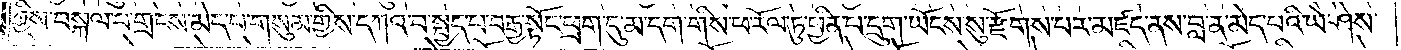ཀྱིས་བསྐལ་པ་གྲངས་མེད་པ་གསུམ་གྱིས་དཀའ་བ་སྤྱད་པ་བརྒྱ་སྟོང་ཕྲག་དུ་མ་དག་གིས་ཕ་རོལ་ཏུ་ཕྱིན་པ་དྲུག་ཡོངས་སུ་རྫོགས་པར་མཛད་ནས་བླ་ན་མེད་པའི་ཡེ་ཤེས་
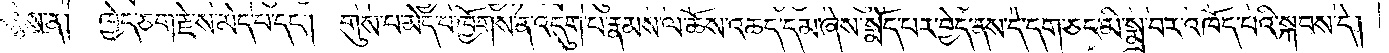བརྙེས་ན། ཁྱེད་ཅག་རྗེ་ས་མེད་པ་དང༌། གུས་པ་མེད་པ་ཁྱོགས་ན་འདུག་པ་རྣམས་ལ་ཆོས་འཆད་དམ་ཞེས་སྨོད་པར་བྱེད་ནས་དེ་དག་ཅང་མི་སྨྲ་བར་འཁོད་པའི་སྐབས་དེ།
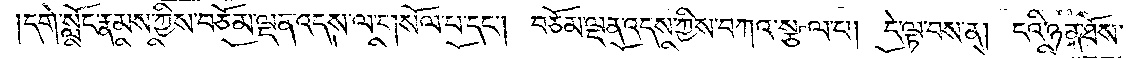དགེ་སློང་རྣམས་ཀྱིས་བཅོམ་ལྡན་འདས་ལ་གསོལ་པ་དང༌། བཅོམ་ལྡན་འདས་ཀྱིས་བཀའ་སྩལ་པ། དེ་ལྟ་བས་ན། ངའི་ཉན་ཐོས་
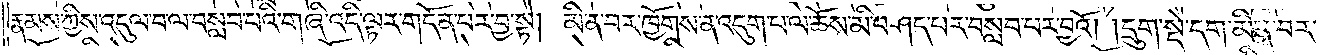རྣམས་ཀྱིས་འདུལ་བ་ལ་བསླབ་པའི་གཞི་འདི་ལྟར་གདོན་པར་བྱ་སྟེ། མི་ན་བར་ཁྱོགས་ན་འདུག་པ་ལ་ཆོས་མི་བཤད་པར་བསླབ་པར་བྱའོ། །དྲུག་སྡེ་དག་མི་ན་བར་
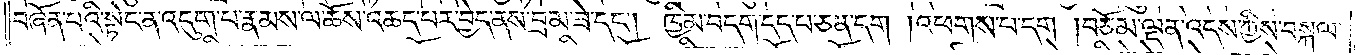བཞོན་པའི་སྟེང་ན་འདུག་པ་རྣམས་ལ་ཆོས་འཆད་པར་བྱེད་ནས་བྲམ་ཟེ་དང༌། ཁྱིམ་བདག་དད་པ་ཅན་དག །འཕགས་པ་དག །བཅོམ་ལྡན་འདས་ཀྱིས་བསྐལ་
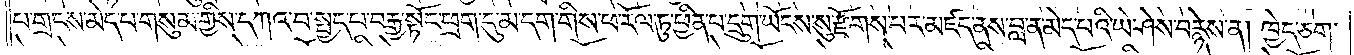པ་གྲངས་མེད་པ་གསུམ་གྱིས་དཀའ་བ་སྤྱད་པ་བརྒྱ་སྟོང་ཕྲག་དུ་མ་དག་གིས་ཕ་རོལ་ཏུ་ཕྱིན་པ་དྲུག་ཡོངས་སུ་རྫོགས་པར་མཛད་ནས་བླ་ན་མེད་པའི་ཡེ་ཤེས་བརྙེས་ན། ཁྱེད་ཅག་
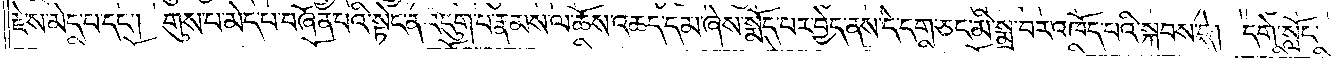རྗེས་མེད་པ་དང༌། གུས་པ་མེད་པ་བཞོན་པའི་སྟེང་ན་འདུག་པ་རྣམས་ལ་ཆོས་འཆད་དམ་ཞེས་སྨོད་པར་བྱེད་ནས་དེ་དག་ཅང་མི་སྨྲ་བར་འཁོད་པའི་སྐབས་དེ། དགེ་སློང་
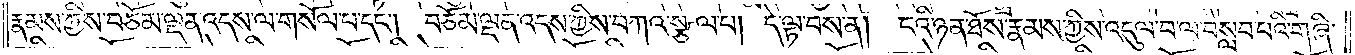རྣམས་ཀྱིས་བཅོམ་ལྡན་འདས་ལ་གསོལ་པ་དང༌། བཅོམ་ལྡན་འདས་ཀྱིས་བཀའ་སྩལ་པ། དེ་ལྟ་བས་ན། ངའི་ཉན་ཐོས་རྣམས་ཀྱིས་འདུལ་བ་ལ་བསླབ་པའི་གཞི་
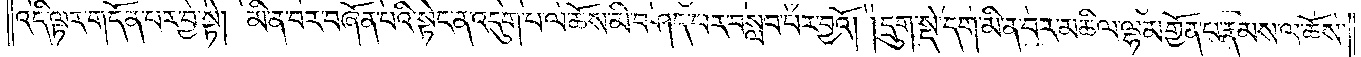འདི་ལྟར་གདོན་པར་བྱ་སྟེ། མི་ན་བར་བཞོན་པའི་སྟེང་ན་འདུག་པ་ལ་ཆོས་མི་བཤད་པར་བསླབ་པར་བྱའོ། །དྲུག་སྡེ་དག་མི་ན་བར་མཆིལ་ལྷམ་གྱོན་པ་རྣམས་ལ་ཆོས་
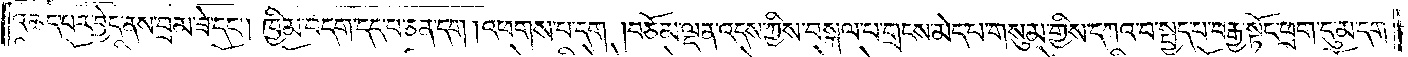འཆད་པར་བྱེད་ནས་བྲམ་ཟེ་དང༌། ཁྱིམ་བདག་དད་པ་ཅན་དག །འཕགས་པ་དག །བཅོམ་ལྡན་འདས་ཀྱིས་བསྐལ་པ་གྲངས་མེད་པ་གསུམ་གྱིས་དཀའ་བ་སྤྱད་པ་བརྒྱ་སྟོང་ཕྲག་དུ་མ་དག་
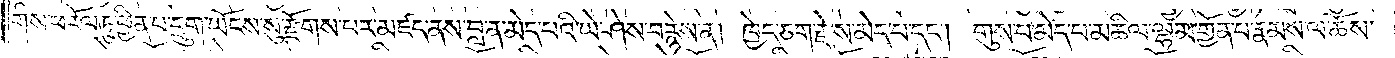གིས་ཕ་རོལ་ཏུ་ཕྱིན་པ་དྲུག་ཡོངས་སུ་རྫོགས་པར་མཛད་ནས་བླ་ན་མེད་པའི་ཡེ་ཤེས་བརྙེས་ན། ཁྱེད་ཅག་རྗེས་མེད་པ་དང༌། གུས་པ་མེད་པ་མཆིལ་ལྷམ་གྱོན་པ་རྣམས་ལ་ཆོས་
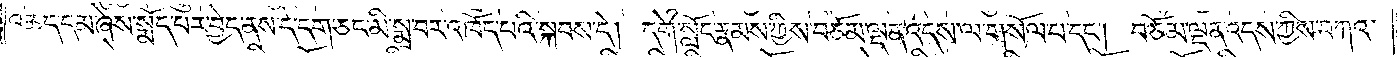འཆད་དམ་ཞེས་སྨོད་པར་བྱེད་ནས་དེ་དག་ཅང་མི་སྨྲ་བར་འཁོད་པའི་སྐབས་དེ། དགེ་སློང་རྣམས་ཀྱིས་བཅོམ་ལྡན་འདས་ལ་གསོལ་པ་དང༌། བཅོམ་ལྡན་འདས་ཀྱིས་བཀའ་
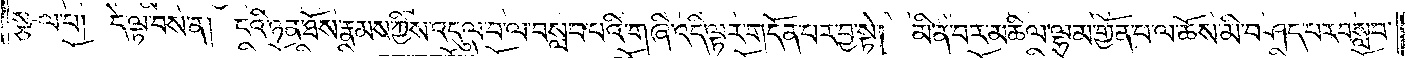སྩལ་པ། དེ་ལྟ་བས་ན། ངའི་ཉན་ཐོས་རྣམས་ཀྱིས་འདུལ་བ་ལ་བསླབ་པའི་གཞི་འདི་ལྟར་གདོན་པར་བྱ་སྟེ། མི་ན་བར་མཆིལ་ལྷམ་གྱོན་པ་ལ་ཆོས་མི་བཤད་པར་བསླབ་
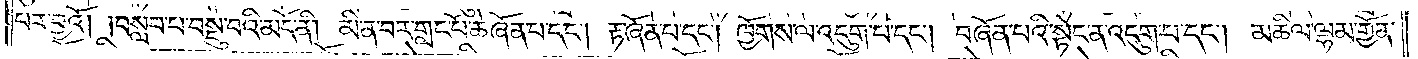པར་བྱའོ། །བསླབ་པ་བསྡུ་བའི་མདོ་ནི། མི་ན་བར་གླང་པོ་ཆེ་ཞོན་པ་དང༌། རྟ་ཞོན་པ་དང༌། ཁྱོགས་ལ་འདུག་པ་དང༌། བཞོན་པའི་སྟེང་ན་འདུག་པ་དང༌། མཆིལ་ལྷམ་གྱོན་
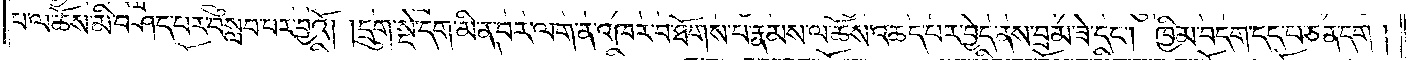པ་ལ་ཆོས་མི་བཤད་པར་བསླབ་པར་བྱའོ། །དྲུག་སྡེ་དག་མི་ན་བར་ལག་ན་འཁར་བ་ཐོགས་པ་རྣམས་ལ་ཆོས་འཆད་པར་བྱེད་ནས་བྲམ་ཟེ་དང༌། ཁྱིམ་བདག་དད་པ་ཅན་དག་
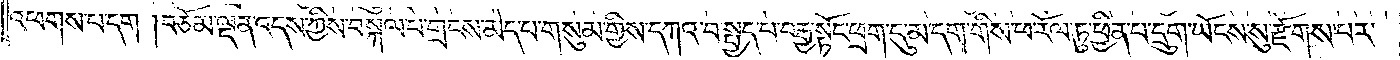འཕགས་པ་དག །བཅོམ་ལྡན་འདས་ཀྱིས་བསྐལ་པ་གྲངས་མེད་པ་གསུམ་གྱིས་དཀའ་བ་སྤྱད་པ་བརྒྱ་སྟོང་ཕྲག་དུ་མ་དག་གིས་ཕ་རོལ་ཏུ་ཕྱིན་པ་དྲུག་ཡོངས་སུ་རྫོགས་པར་
